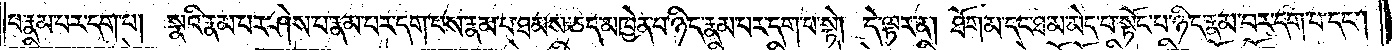པ་རྣམ་པར་དག་པ། སྣའི་རྣམ་པར་ཤེས་པ་རྣམ་པར་དག་པས་རྣམ་པ་ཐམས་ཅད་མཁྱེན་པ་ཉིད་རྣམ་པར་དག་པ་སྟེ། དེ་ལྟར་ན། ཐོག་མ་དང་ཐ་མ་མེད་པ་སྟོང་པ་ཉིད་རྣམ་པར་དག་པ་དང༌།
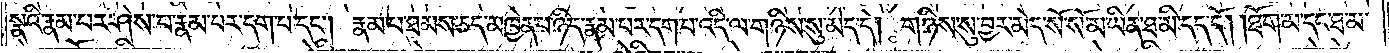སྣའི་རྣམ་པར་ཤེས་པ་རྣམ་པར་དག་པ་དང༌། རྣམ་པ་ཐམས་ཅད་མཁྱེན་པ་ཉིད་རྣམ་པར་དག་པ་འདི་ལ་གཉིས་སུ་མེད་དེ། གཉིས་སུ་བྱར་མེད་སོ་སོ་མ་ཡིན་ཐ་མི་དད་དོ། །ཐོག་མ་དང་ཐ་མ་
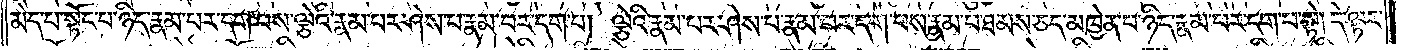མེད་པ་སྟོང་པ་ཉིད་རྣམ་པར་དག་པས་ལྕེའི་རྣམ་པར་ཤེས་པ་རྣམ་པར་དག་པ། ལྕེའི་རྣམ་པར་ཤེས་པ་རྣམ་པར་དག་པས་རྣམ་པ་ཐམས་ཅད་མཁྱེན་པ་ཉིད་རྣམ་པར་དག་པ་སྟེ། དེ་ལྟར་
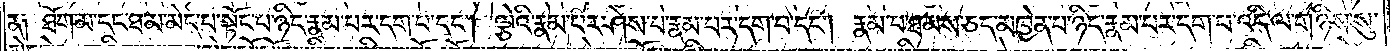ན༑ ཐོག་མ་དང་ཐ་མ་མེད་པ་སྟོང་པ་ཉིད་རྣམ་པར་དག་པ་དང༌། ལྕེའི་རྣམ་པར་ཤེས་པ་རྣམ་པར་དག་པ་དང༌། རྣམ་པ་ཐམས་ཅད་མཁྱེན་པ་ཉིད་རྣམ་པར་དག་པ་འདི་ལ་གཉིས་སུ་
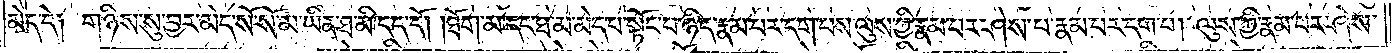མེད་དེ༑ གཉིས་སུ་བྱར་མེད་སོ་སོ་མ་ཡིན་ཐ་མི་དད་དོ། །ཐོག་མ་དང་ཐ་མ་མེད་པ་སྟོང་པ་ཉིད་རྣམ་པར་དག་པས་ལུས་ཀྱི་རྣམ་པར་ཤེས་པ་རྣམ་པར་དག་པ། ལུས་ཀྱི་རྣམ་པར་ཤེས་
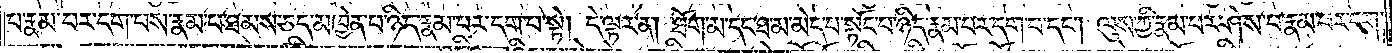པ་རྣམ་པར་དག་པས་རྣམ་པ་ཐམས་ཅད་མཁྱེན་པ་ཉིད་རྣམ་པར་དག་པ་སྟེ། དེ་ལྟར་ན། ཐོག་མ་དང་ཐ་མ་མེད་པ་སྟོང་པ་ཉིད་རྣམ་པར་དག་པ་དང༌། ལུས་ཀྱི་རྣམ་པར་ཤེས་པ་རྣམ་པར་དག་
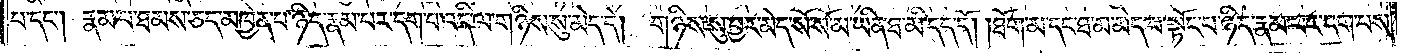པ་དང༌། རྣམ་པ་ཐམས་ཅད་མཁྱེན་པ་ཉིད་རྣམ་པར་དག་པ་འདི་ལ་གཉིས་སུ་མེད་དེ། གཉིས་སུ་བྱར་མེད་སོ་སོ་མ་ཡིན་ཐ་མི་དད་དོ། །ཐོག་མ་དང་ཐ་མ་མེད་པ་སྟོང་པ་ཉིད་རྣམ་པར་དག་པས་
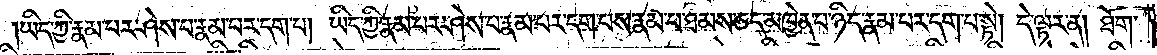ཡིད་ཀྱི་རྣམ་པར་ཤེས་པ་རྣམ་པར་དག་པ། ཡིད་ཀྱི་རྣམ་པར་ཤེས་པ་རྣམ་པར་དག་པས་རྣམ་པ་ཐམས་ཅད་མཁྱེན་པ་ཉིད་རྣམ་པར་དག་པ་སྟེ། དེ་ལྟར་ན། ཐོག་
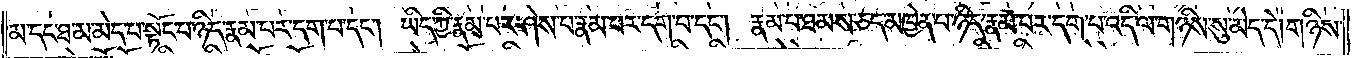མ་དང་ཐ་མ་མེད་པ་སྟོང་པ་ཉིད་རྣམ་པར་དག་པ་དང༌། ཡིད་ཀྱི་རྣམ་པར་ཤེས་པ་རྣམ་པར་དག་པ་དང༌། རྣམ་པ་ཐམས་ཅད་མཁྱེན་པ་ཉིད་རྣམ་པར་དག་པ་འདི་ལ་གཉིས་སུ་མེད་དེ། གཉིས་
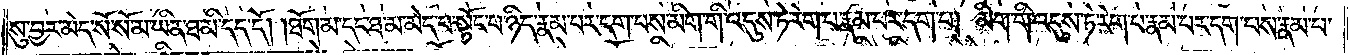སུ་བྱར་མེད་སོ་སོ་མ་ཡིན་ཐ་མི་དད་དོ། །ཐོག་མ་དང་ཐ་མ་མེད་པ་སྟོང་པ་ཉིད་རྣམ་པར་དག་པས་མིག་གི་འདུས་ཏེ་རེག་པ་རྣམ་པར་དག་པ། མིག་གི་འདུས་ཏེ་རེག་པ་རྣམ་པར་དག་པས་རྣམ་པ་
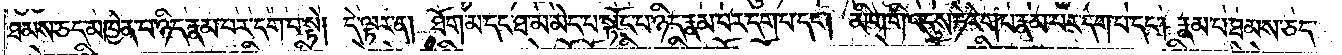ཐམས་ཅད་མཁྱེན་པ་ཉིད་རྣམ་པར་དག་པ་སྟེ། དེ་ལྟར་ན། ཐོག་མ་དང་ཐ་མ་མེད་པ་སྟོང་པ་ཉིད་རྣམ་པར་དག་པ་དང༌། མིག་གི་འདུས་ཏེ་རེག་པ་རྣམ་པར་དག་པ་དང༌། རྣམ་པ་ཐམས་ཅད་
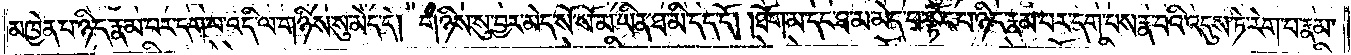མཁྱེན་པ་ཉིད་རྣམ་པར་དག་པ་འདི་ལ་གཉིས་སུ་མེད་དེ། གཉིས་སུ་བྱར་མེད་སོ་སོ་མ་ཡིན་ཐ་མི་དད་དོ། །ཐོག་མ་དང་ཐ་མ་མེད་པ་སྟོང་པ་ཉིད་རྣམ་པར་དག་པས་རྣ་བའི་འདུས་ཏེ་རེག་པ་རྣམ་
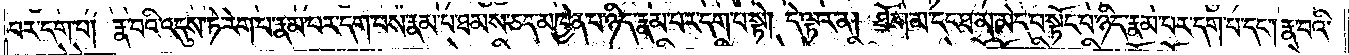པར་དག་པ། རྣ་བའི་འདུས་ཏེ་རེག་པ་རྣམ་པར་དག་པས་རྣམ་པ་ཐམས་ཅད་མཁྱེན་པ་ཉིད་རྣམ་པར་དག་པ་སྟེ། དེ་ལྟར་ན། ཐོག་མ་དང་ཐ་མ་མེད་པ་སྟོང་པ་ཉིད་རྣམ་པར་དག་པ་དང༌། རྣ་བའི་
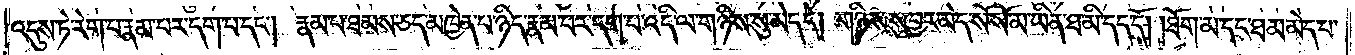འདུས་ཏེ་རེག་པ་རྣམ་པར་དག་པ་དང༌། རྣམ་པ་ཐམས་ཅད་མཁྱེན་པ་ཉིད་རྣམ་པར་དག་པ་འདི་ལ་གཉིས་སུ་མེད་དེ། གཉིས་སུ་བྱར་མེད་སོ་སོ་མ་ཡིན་ཐ་མི་དད་དོ། །ཐོག་མ་དང་ཐ་མ་མེད་པ་
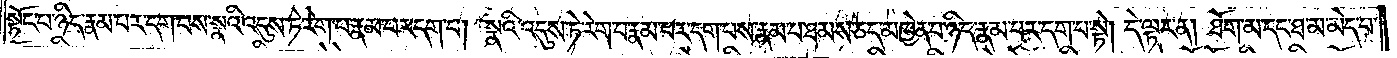སྟོང་པ་ཉིད་རྣམ་པར་དག་པས་སྣའི་འདུས་ཏེ་རེག་པ་རྣམ་པར་དག་པ། སྣའི་འདུས་ཏེ་རེག་པ་རྣམ་པར་དག་པས་རྣམ་པ་ཐམས་ཅད་མཁྱེན་པ་ཉིད་རྣམ་པར་དག་པ་སྟེ། དེ་ལྟར་ན། ཐོག་མ་དང་ཐ་མ་མེད་པ་
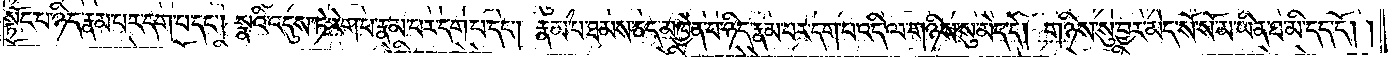སྟོང་པ་ཉིད་རྣམ་པར་དག་པ་དང༌། སྣའི་འདུས་ཏེ་རེག་པ་རྣམ་པར་དག་པ་དང༌། རྣམ་པ་ཐམས་ཅད་མཁྱེན་པ་ཉིད་རྣམ་པར་དག་པ་འདི་ལ་གཉིས་སུ་མེད་དེ། གཉིས་སུ་བྱར་མེད་སོ་སོ་མ་ཡིན་ཐ་མི་དད་དོ། །
